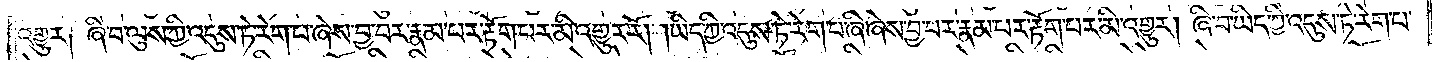འགྱུར། ཞི་བ་ལུས་ཀྱི་འདུས་ཏེ་རེག་པ་ཞེས་བྱ་བར་རྣམ་པར་རྟོག་པར་མི་འགྱུར་རོ། །ཡིད་ཀྱི་འདུས་ཏེ་རེག་པ་ཞི་ཞེས་བྱ་བར་རྣམ་པར་རྟོག་པར་མི་འགྱུར། ཞི་བ་ཡིད་ཀྱི་འདུས་ཏེ་རེག་པ་
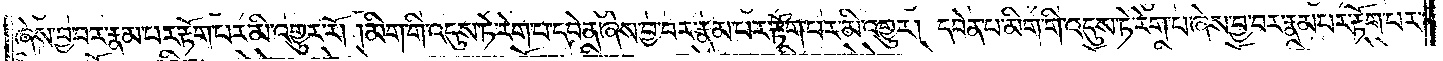ཞེས་བྱ་བར་རྣམ་པར་རྟོག་པར་མི་འགྱུར་རོ། །མིག་གི་འདུས་ཏེ་རེག་པ་དབེན་ཞེས་བྱ་བར་རྣམ་པར་རྟོག་པར་མི་འགྱུར། དབེན་པ་མིག་གི་འདུས་ཏེ་རེག་པ་ཞེས་བྱ་བར་རྣམ་པར་རྟོག་པར་
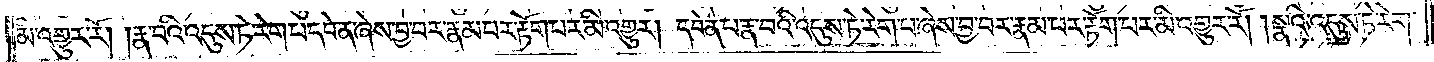མི་འགྱུར་རོ། །རྣ་བའི་འདུས་ཏེ་རེག་པ་དབེན་ཞེས་བྱ་བར་རྣམ་པར་རྟོག་པར་མི་འགྱུར། དབེན་པ་རྣ་བའི་འདུས་ཏེ་རེག་པ་ཞེས་བྱ་བར་རྣམ་པར་རྟོག་པར་མི་འགྱུར་རོ། །སྣའི་འདུས་ཏེ་རེག་
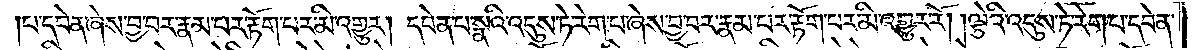པ་དབེན་ཞེས་བྱ་བར་རྣམ་པར་རྟོག་པར་མི་འགྱུར། དབེན་པ་སྣའི་འདུས་ཏེ་རེག་པ་ཞེས་བྱ་བར་རྣམ་པར་རྟོག་པར་མི་འགྱུར་རོ། །ལྕེའི་འདུས་ཏེ་རེག་པ་དབེན་
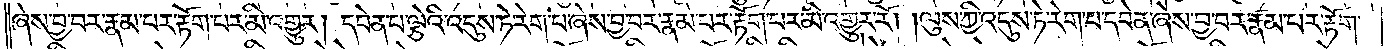ཞེས་བྱ་བར་རྣམ་པར་རྟོག་པར་མི་འགྱུར། དབེན་པ་ལྕེའི་འདུས་ཏེ་རེག་པ་ཞེས་བྱ་བར་རྣམ་པར་རྟོག་པར་མི་འགྱུར་རོ། །ལུས་ཀྱི་འདུས་ཏེ་རེག་པ་དབེན་ཞེས་བྱ་བར་རྣམ་པར་རྟོག་
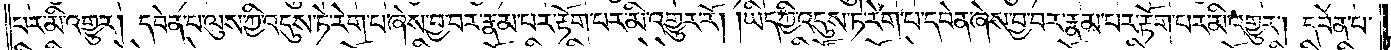པར་མི་འགྱུར། དབེན་པ་ལུས་ཀྱི་འདུས་ཏེ་རེག་པ་ཞེས་བྱ་བར་རྣམ་པར་རྟོག་པར་མི་འགྱུར་རོ། །ཡིད་ཀྱི་འདུས་ཏེ་རེག་པ་དབེན་ཞེས་བྱ་བར་རྣམ་པར་རྟོག་པར་མི་འགྱུར། དབེན་པ་
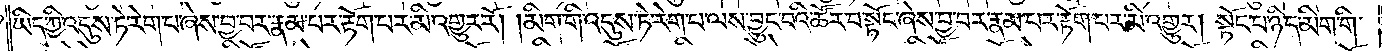ཡིད་ཀྱི་འདུས་ཏེ་རེག་པ་ཞེས་བྱ་བར་རྣམ་པར་རྟོག་པར་མི་འགྱུར་རོ། །མིག་གི་འདུས་ཏེ་རེག་པ་ལས་བྱུང་བའི་ཚོར་བ་སྟོང་ཞེས་བྱ་བར་རྣམ་པར་རྟོག་པར་མི་འགྱུར། སྟོང་པ་ཉིད་མིག་གི་
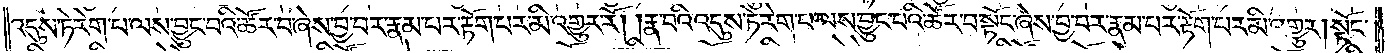འདུས་ཏེ་རེག་པ་ལས་བྱུང་བའི་ཚོར་བ་ཞེས་བྱ་བར་རྣམ་པར་རྟོག་པར་མི་འགྱུར་རོ། །རྣ་བའི་འདུས་ཏེ་རེག་པ་ལས་བྱུང་བའི་ཚོར་བ་སྟོང་ཞེས་བྱ་བར་རྣམ་པར་རྟོག་པར་མི་འགྱུར། སྟོང་
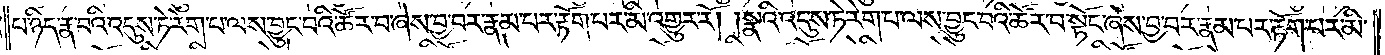པ་ཉིད་རྣ་བའི་འདུས་ཏེ་རེག་པ་ལས་བྱུང་བའི་ཚོར་བ་ཞེས་བྱ་བར་རྣམ་པར་རྟོག་པར་མི་འགྱུར་རོ། །སྣའི་འདུས་ཏེ་རེག་པ་ལས་བྱུང་བའི་ཚོར་བ་སྟོང་ཞེས་བྱ་བར་རྣམ་པར་རྟོག་པར་མི་
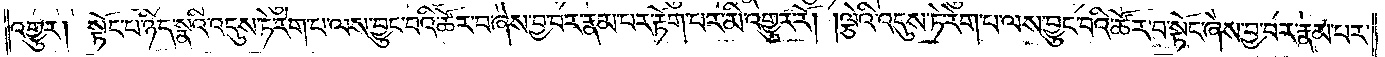འགྱུར། སྟོང་པ་ཉིད་སྣའི་འདུས་ཏེ་རེག་པ་ལས་བྱུང་བའི་ཚོར་བ་ཞེས་བྱ་བར་རྣམ་པར་རྟོག་པར་མི་འགྱུར་རོ། །ལྕེའི་འདུས་ཏེ་རེག་པ་ལས་བྱུང་བའི་ཚོར་བ་སྟོང་ཞེས་བྱ་བར་རྣམ་པར་
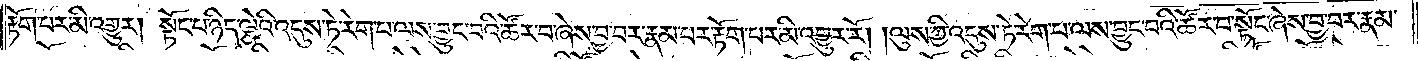རྟོག་པར་མི་འགྱུར། སྟོང་པ་ཉིད་ལྕེའི་འདུས་ཏེ་རེག་པ་ལས་བྱུང་བའི་ཚོར་བ་ཞེས་བྱ་བར་རྣམ་པར་རྟོག་པར་མི་འགྱུར་རོ། །ལུས་ཀྱི་འདུས་ཏེ་རེག་པ་ལས་བྱུང་བའི་ཚོར་བ་སྟོང་ཞེས་བྱ་བར་རྣམ་
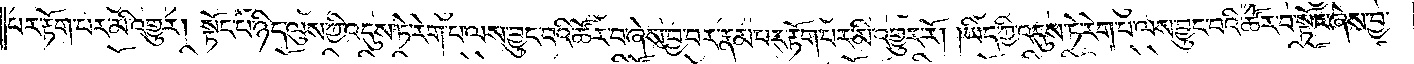པར་རྟོག་པར་མི་འགྱུར། སྟོང་པ་ཉིད་ལུས་ཀྱི་འདུས་ཏེ་རེག་པ་ལས་བྱུང་བའི་ཚོར་བ་ཞེས་བྱ་བར་རྣམ་པར་རྟོག་པར་མི་འགྱུར་རོ། །ཡིད་ཀྱི་འདུས་ཏེ་རེག་པ་ལས་བྱུང་བའི་ཚོར་བ་སྟོང་ཞེས་བྱ་
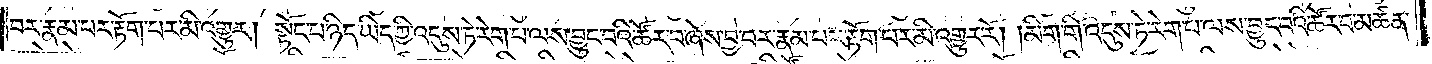བར་རྣམ་པར་རྟོག་པར་མི་འགྱུར། སྟོང་པ་ཉིད་ཡིད་ཀྱི་འདུས་ཏེ་རེག་པ་ལས་བྱུང་བའི་ཚོར་བ་ཞེས་བྱ་བར་རྣམ་པར་རྟག་པར་མི་འགྱུར་རོ། །མིག་གི་འདུས་ཏེ་རེག་པ་ལས་བྱུང་བའི་ཚོར་བ་མཚན་
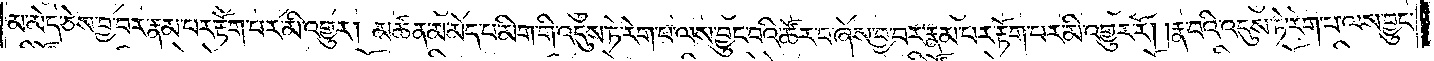མ་མེད་ཅེས་བྱ་བར་རྣམ་པར་རྟོག་པར་མི་འགྱུར། མཚན་མ་མེད་པ་མིག་གི་འདུས་ཏེ་རེག་པ་ལས་བྱུང་བའི་ཚོར་བ་ཞེས་བྱ་བར་རྣམ་པར་རྟོག་པར་མི་འགྱུར་རོ། །རྣ་བའི་འདུས་ཏེ་རེག་པ་ལས་བྱུང་
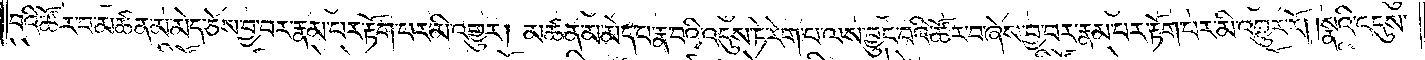བའི་ཚོར་བ་མཚན་མ་མེད་ཅེས་བྱ་བར་རྣམ་པར་རྟོག་པར་མི་འགྱུར། མཚན་མ་མེད་པ་རྣ་བའི་འདུས་ཏེ་རེག་པ་ལས་བྱུང་བའི་ཚོར་བ་ཞེས་བྱ་བར་རྣམ་པར་རྟོག་པར་མི་འགྱུར་རོ། །སྣའི་འདུས་
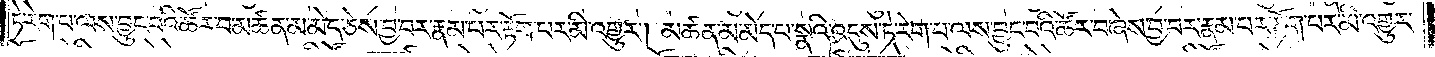ཏེ་རེག་པ་ལས་བྱུང་བའི་ཚོར་བ་མཚན་མ་མེད་ཅེས་བྱ་བར་རྣམ་པར་རྟོག་པར་མི་འགྱུར། མཚན་མ་མེད་པ་སྣའི་འདུས་ཏེ་རེག་པ་ལས་བྱུང་བའི་ཚོར་བ་ཞེས་བྱ་བར་རྣམ་པར་རྟོག་པར་མི་འགྱུར་
